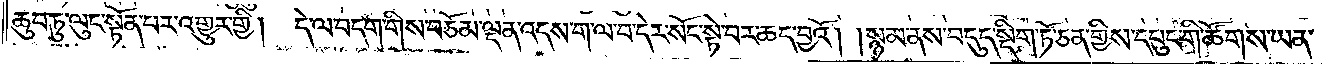ཆུབ་ཏུ་ལུང་སྟོན་པར་འགྱུར་གྱི། དེ་ལ་བདག་གིས་བཅོམ་ལྡན་འདས་ག་ལ་བ་དེར་སོང་སྟེ་བར་ཆད་བྱའོ། །སྙམ་ནས་བདུད་སྡིག་ཏོ་ཅན་གྱིས་དཔུང་གི་ཚོགས་ཡན།
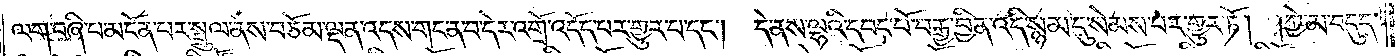ལག་བཞི་པ་མངོན་པར་སྤྲུལ་ནས་བཅོམ་ལྡན་འདས་གང་ན་བ་དེར་འགྲོ་འདོད་པར་གྱུར་པ་དང༌། དེ་ནས་ལྷའི་དབང་པོ་བརྒྱ་བྱིན་འདི་སྙམ་དུ་སེམས་པར་གྱུར་ཏོ། །ཀྱེ་མ་བདུད་
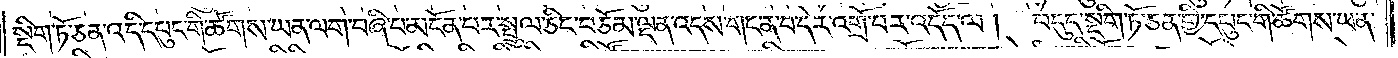སྡིག་ཏོ་ཅན་འདི་དཔུང་གི་ཚོགས་ཡན་ལག་བཞི་པ་མངོན་པར་སྤྲུལ་ཅིང་བཅོམ་ལྡན་འདས་གང་ན་བ་དེར་འགྲོ་བར་འདོད་ལ། བདུད་སྡིག་ཏོ་ཅན་གྱི་དཔུང་གི་ཚོགས་ཡན་
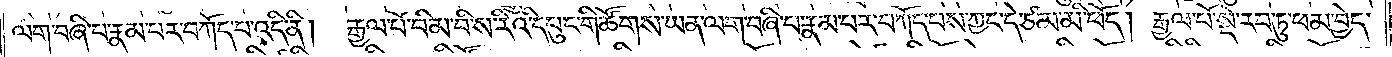ལག་བཞི་པ་རྣམ་པར་བཀོད་པ་འདི་ནི། རྒྱལ་པོ་བིམ་བི་ས་རིའི་དཔུང་གི་ཚོགས་ཡན་ལག་བཞི་པ་རྣམ་པར་བཀོད་པས་ཀྱང་དེ་ཙམ་མི་ཕོད། རྒྱལ་པོ་སྡེ་རབ་ཏུ་ཕམ་བྱེད་
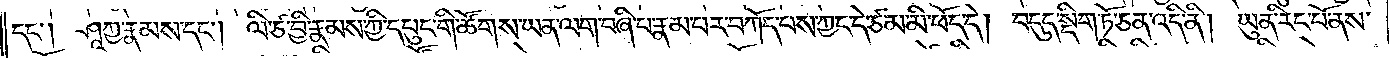དང༌། ཤཱ་ཀྱ་རྣམས་དང༌། ལི་ཙ་བྱི་རྣམས་ཀྱི་དཔུང་གི་ཚོགས་ཡན་ལག་བཞི་པ་རྣམ་པར་བཀོད་པས་ཀྱང་དེ་ཙམ་མི་ཕོད་དེ། བདུད་སྡིག་ཏོ་ཅན་འདི་ནི། ཡུན་རིང་པོ་ནས་
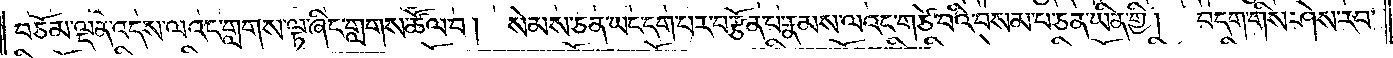བཅོམ་ལྡན་འདས་ལའང་གླགས་ལྟ་ཞིང་གླགས་ཚོལ་བ། སེམས་ཅན་ཡང་དག་པར་བརྩོན་པ་རྣམས་ལའང་གཙོ་བའི་བསམ་པ་ཅན་ཡིན་གྱི། བདག་གིས་ཤེས་རབ་
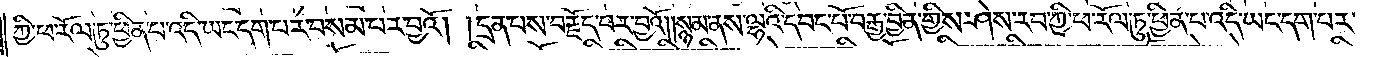ཀྱི་ཕ་རོལ་ཏུ་ཕྱིན་པ་འདི་ཡང་དག་པར་བསམ་པར་བྱའོ། །དྲན་པས་བརྗོད་པར་བྱའོ༎སྙམ་ནས་ལྷའི་དབང་པོ་བརྒྱ་བྱིན་གྱིས་ཤེས་རབ་ཀྱི་ཕ་རོལ་ཏུ་ཕྱིན་པ་འདི་ཡང་དག་པར་
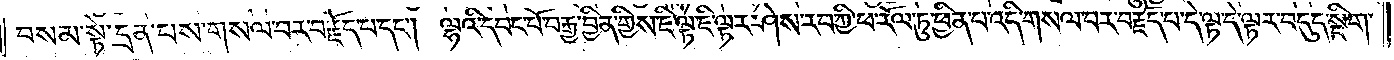བསམ་སྟེ་དྲན་པས་གསལ་བར་བརྗོད་པ་དང༌། ལྷའི་དབང་པོ་བརྒྱ་བྱིན་གྱིས་ཇི་ལྟ་ཇི་ལྟར་ཤེས་རབ་ཀྱི་ཕ་རོལ་ཏུ་ཕྱིན་པ་འདི་གསལ་བར་བརྗོད་པ་དེ་ལྟ་དེ་ལྟར་བདུད་སྡིག་
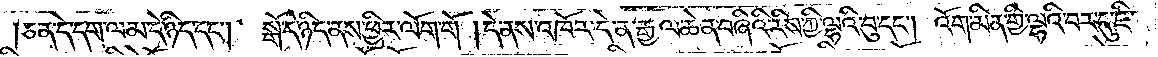ཅན་དེ་དག་ལམ་དེ་ཉིད་དང༌། སྒོ་དེ་ཉིད་ནས་ཕྱིར་ལོག་གོ །དེ་ནས་འཁོར་དེ་ན་རྒྱལ་ཆེན་བཞིའི་རིས་ཀྱི་ལྷའི་བུ་དང༌། འོག་མིན་གྱི་ལྷའི་བར་དུ་ཇི་
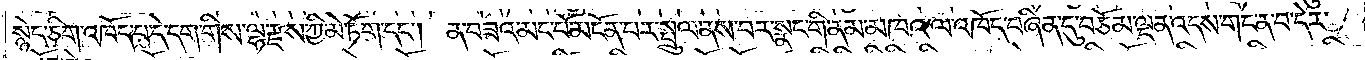སྙེད་ཅིག་འཁོད་པ་དེ་དག་གིས་ལྷ་རྫས་ཀྱི་མེ་ཏོག་དང༌། ན་བཟའ་མང་པོ་མངོན་པར་སྤྲུལ་ནས་བར་སྣང་གི་ནམ་མཁའ་ལ་འཁོད་བཞིན་དུ་བཅོམ་ལྡན་འདས་གང་ན་བ་དེར་
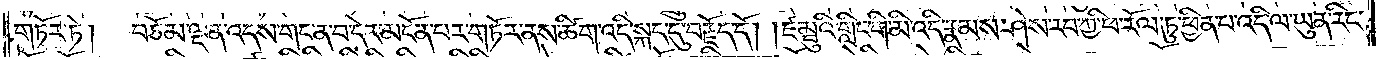གཏོར་ཏེ། བཅོམ་ལྡན་འདས་གང་ན་བ་དེར་མངོན་པར་གཏོར་ནས་ཚིག་འདི་སྐད་དུ་བརྗོད་དོ། །ཛམྦུའི་གླིང་གི་མི་འདི་རྣམས་ཤེས་རབ་ཀྱི་ཕ་རོལ་ཏུ་ཕྱིན་པ་འདི་ལ་ཡུན་རིང་
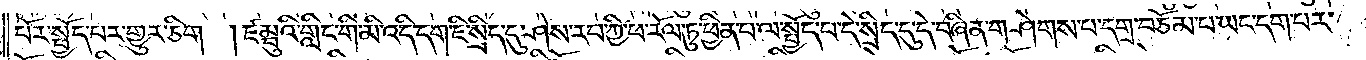པོར་སྤྱོད་པར་གྱུར་ཅིག །ཛམྦུའི་གླིང་གི་མི་འདི་དག་ཇི་སྲིད་དུ་ཤེས་རབ་ཀྱི་ཕ་རོལ་ཏུ་ཕྱིན་པ་ལ་སྤྱོད་པ་དེ་སྲིད་དུ་དེ་བཞིན་གཤེགས་པ་དགྲ་བཅོམ་པ་ཡང་དག་པར་
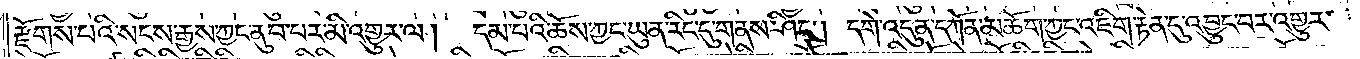རྫོགས་པའི་སངས་རྒྱས་ཀྱང་ནུབ་བར་མི་འགྱུར་ལ། དམ་པའི་ཆོས་ཀྱང་ཡུན་རིང་དུ་གནས་ཤིང༌། དགེ་འདུན་དཀོན་མཆོག་ཀྱང་འཇིག་རྟེན་དུ་འབྱུང་བར་འགྱུར་
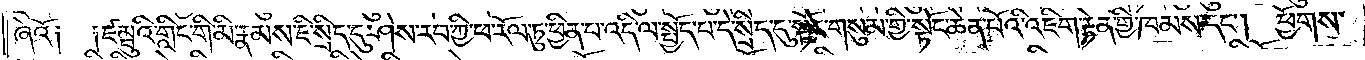ཞེའོ༑ ༑ཛམྦུའི་གླིང་གི་མི་རྣམས་ཇི་སྲིད་དུ་ཤེས་རབ་ཀྱི་ཕ་རོལ་ཏུ་ཕྱིན་པ་འདི་ལ་སྤྱོད་པ་དེ་སྲིད་དུ་སྟོང་གསུམ་གྱི་སྟོང་ཆེན་པོའི་འཇིག་རྟེན་གྱི་ཁམས་དང༌། ཕྱོགས་
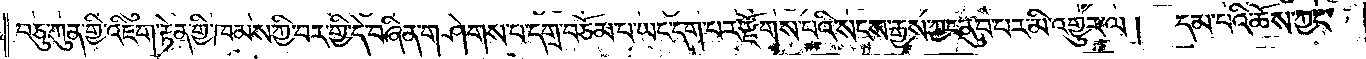བཅུ་ཀུན་གྱི་འཇིག་རྟེན་གྱི་ཁམས་ཀྱི་བར་གྱི་དེ་བཞིན་གཤེགས་པ་དགྲ་བཅོམ་པ་ཡང་དག་པར་རྫོགས་པའི་སངས་རྒྱས་ཀྱང་ནུབ་པར་མི་འགྱུར་ལ། དམ་པའི་ཆོས་ཀྱང་
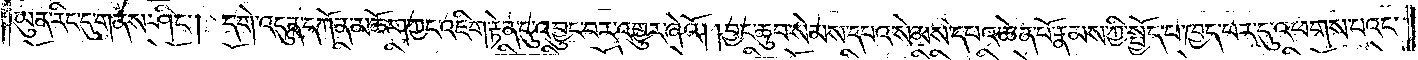ཡུན་རིང་དུ་གནས་ཤིང༌། དགེ་འདུན་དཀོན་མཆོག་ཀྱང་འཇིག་རྟེན་དུ་འབྱུང་བར་འགྱུར་ཞེའོ། །བྱང་ཆུབ་སེམས་དཔའ་སེམས་དཔའ་ཆེན་པོ་རྣམས་ཀྱི་སྤྱོད་པ་ཁྱད་པར་དུ་འཕགས་པའང་
